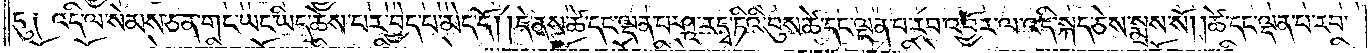དུ༏ འདི་ལ་སེམས་ཅན་གང་ཡང་ཡིད་ཆེས་པར་བྱེད་པ་མེད་དོ། །དེ་ནས་ཚེ་དང་ལྡན་པ་ཤཱ་ར་དྭ་ཏིའི་བུས་ཚེ་དང་ལྡན་པ་རབ་འབྱོར་ལ་འདི་སྐད་ཅེས་སྨྲས་སོ། །ཚེ་དང་ལྡན་པ་རབ་
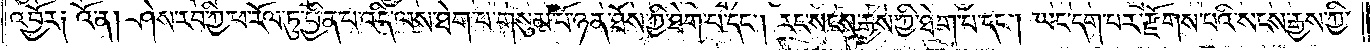འབྱོར༏ འོ་ན། ཤེས་རབ་ཀྱི་ཕ་རོལ་ཏུ་ཕྱིན་པ་འདི་ལས་ཐེག་པ་གསུམ་པོ་ཉན་ཐོས་ཀྱི་ཐེག་པ་དང༌། རང་སངས་རྒྱས་ཀྱི་ཐེག་པ་དང༌། ཡང་དག་པར་རྫོགས་པའི་སངས་རྒྱས་ཀྱི་
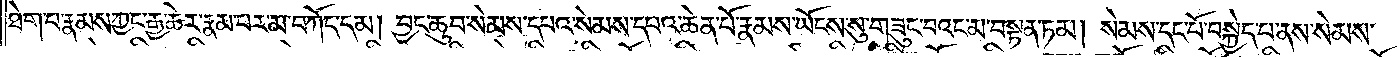ཐེག་པ་རྣམས་ཀྱང་རྒྱ་ཆེར་རྣམ་པར་མ་བཀོད་དམ། བྱང་ཆུབ་སེམས་དཔའ་སེམས་དཔའ་ཆེན་པོ་རྣམས་ཡོངས་སུ་གཟུང་བའང་མ་བསྟན་ཏམ། སེམས་དང་པོ་བསྐྱེད་པ་ནས་སེམས་
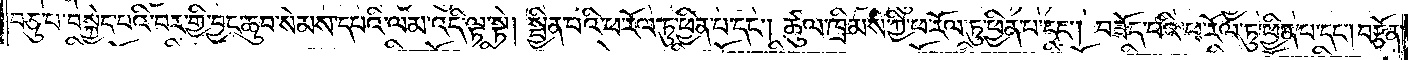བཅུ་པ་བསྐྱེད་པའི་བར་གྱི་བྱང་ཆུབ་སེམས་དཔའི་ལམ་འདི་ལྟ་སྟེ། སྦྱིན་པའི་ཕ་རོལ་ཏུ་ཕྱིན་པ་དང༌། ཚུལ་ཁྲིམས་ཀྱི་ཕ་རོལ་ཏུ་ཕྱིན་པ་དང༌། བཟོད་པའི་ཕ་རོལ་ཏུ་ཕྱིན་པ་དང༌། བརྩོན་
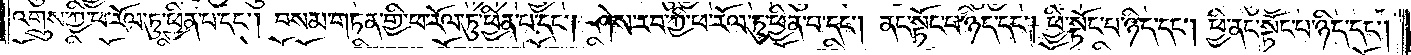འགྲུས་ཀྱི་ཕ་རོལ་ཏུ་ཕྱིན་པ་དང༌། བསམ་གཏན་གྱི་ཕ་རོལ་ཏུ་ཕྱིན་པ་དང༌། ཤེས་རབ་ཀྱི་ཕ་རོལ་ཏུ་ཕྱིན་པ་དང༌། ནང་སྟོང་པ་ཉིད་དང༌། ཕྱི་སྟོང་པ་ཉིད་དང༌། ཕྱི་ནང་སྟོང་པ་ཉིད་དང༌།
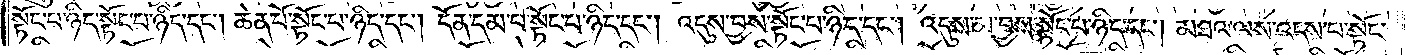སྟོང་པ་ཉིད་སྟོང་པ་ཉིད་དང༌། ཆེན་པོ་སྟོང་པ་ཉིད་དང༌། དོན་དམ་པ་སྟོང་པ་ཉིད་དང༌། འདུས་བྱས་སྟོང་པ་ཉིད་དང༌། འདུས་མ་བྱས་སྟོང་པ་ཉིད་དང༌། མཐའ་ལས་འདས་པ་སྟོང་
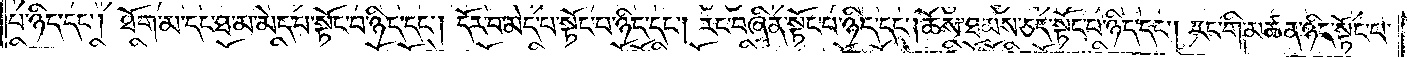པ་ཉིད་དང༌། ཐོག་མ་དང་ཐ་མ་མེད་པ་སྟོང་པ་ཉིད་དང༌། དོར་བ་མེད་པ་སྟོང་པ་ཉིད་དང༌། རང་བཞིན་སྟོང་པ་ཉིད་དང༌། ཆོས་ཐམས་ཅད་སྟོང་པ་ཉིད་དང༌། རང་གི་མཚན་ཉིད་སྟོང་པ་
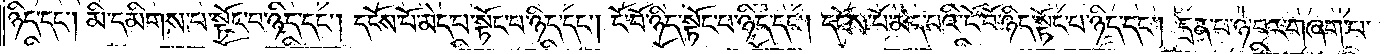ཉིད་དང༌། མི་དམིགས་པ་སྟོང་པ་ཉིད་དང༌། དངོས་པོ་མེད་པ་སྟོང་པ་ཉིད་དང༌། ངོ་བོ་ཉིད་སྟོང་པ་ཉིད་དང༌། དངོས་པོ་མེད་པའི་ངོ་བོ་ཉིད་སྟོང་པ་ཉིད་དང༌། དྲན་པ་ཉེ་བར་གཞག་པ་
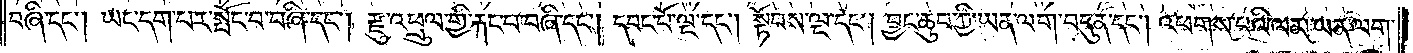བཞི་དང༌། ཡང་དག་པར་སྤོང་བ་བཞི་དང༌། རྫུ་འཕྲུལ་གྱི་རྐང་པ་བཞི་དང༌། དབང་པོ་ལྔ་དང༌། སྟོབས་ལྔ་དང༌། བྱང་ཆུབ་ཀྱི་ཡན་ལག་བདུན་དང༌། འཕགས་པའི་ལམ་ཡན་ལག་
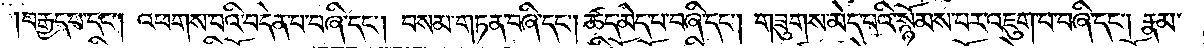བརྒྱད་པ་དང༌། འཕགས་པའི་བདེན་པ་བཞི་དང༌། བསམ་གཏན་བཞི་དང༌། ཚད་མེད་པ་བཞི་དང༌། གཟུགས་མེད་པའི་སྙོམས་པར་འཇུག་པ་བཞི་དང༌། རྣམ་
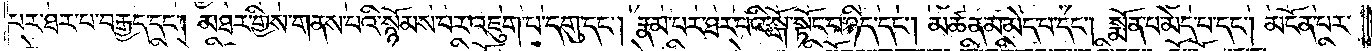པར་ཐར་པ་བརྒྱད་དང༌། མཐར་གྱིས་གནས་པའི་སྙོམས་པར་འཇུག་པ་དགུ་དང༌། རྣམ་པར་ཐར་པའི་སྒོ་སྟོང་པ་ཉིད་དང༌། མཚན་མ་མེད་པ་དང༌། སྨོན་པ་མེད་པ་དང༌། མངོན་པར་
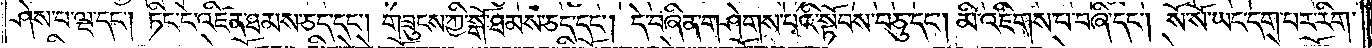ཤེས་པ་ལྔ་དང༌། ཏིང་ངེ་འཛིན་ཐམས་ཅད་དང༌། གཟུངས་ཀྱི་སྒོ་ཐམས་ཅད་དང༌། དེ་བཞིན་གཤེགས་པའི་སྟོབས་བཅུ་དང༌། མི་འཇིགས་པ་བཞི་དང༌། སོ་སོ་ཡང་དག་པར་རིག་
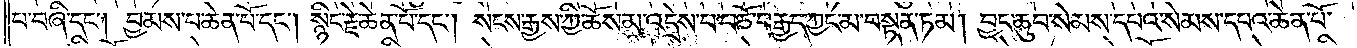པ་བཞི་དང༌། བྱམས་པ་ཆེན་པོ་དང༌། སྙིང་རྗེ་ཆེན་པོ་དང༌། སངས་རྒྱས་ཀྱི་ཆོས་མ་འདྲེས་པ་བཅོ་བརྒྱད་ཀྱང་མ་བསྟན་ཏམ། བྱང་ཆུབ་སེམས་དཔའ་སེམས་དཔའ་ཆེན་པོ་
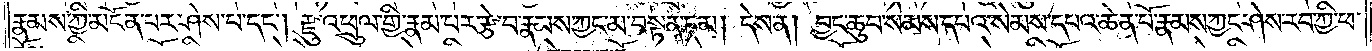རྣམས་ཀྱི་མངོན་པར་ཤེས་པ་དང༌། རྫུ་འཕྲུལ་གྱི་རྣམ་པར་རྩེ་བ་རྣམས་ཀྱང་མ་བསྟན་ཏམ། དེས་ན། བྱང་ཆུབ་སེམས་དཔའ་སེམས་དཔའ་ཆེན་པོ་རྣམས་ཀྱང་ཤེས་རབ་ཀྱི་ཕ་
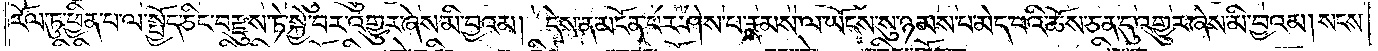རོལ་ཏུ་ཕྱིན་པ་ལ་སྤྱོད་ཅིང༌བརྫུས་ཏེ་སྐྱེ་བར་འགྱུར་ཞེས་མི་བྱའམ། དེས་ན་མངོན་པར་ཤེས་པ་རྣམས་ལ་ཡོངས་སུ་ཉམས་པ་མེད་པའི་ཆོས་ཅན་དུ་འགྱུར་ཞེས་མི་བྱའམ། སངས་
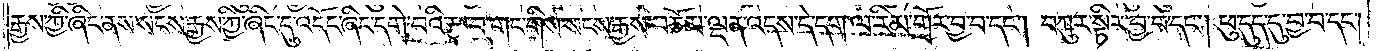རྒྱས་ཀྱི་ཞིང་ནས་སངས་རྒྱས་ཀྱི་ཞིང་དུ་འདོང་ཞིང་དགེ་བའི་རྩ་བ་གང་གིས་སངས་རྒྱས་བཅོམ་ལྡན་འདས་དེ་དག་ལ་རིམ་གྲོར་བྱ་བ་དང༌། བཀུར་སྟིར་བྱ་བ་དང༌། ཕུ་དུད་དུ་བྱ་བ་དང༌།
